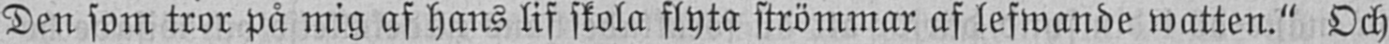Den som tror på mig af hans lif skola flyta strömmar af lefwande watten." Och
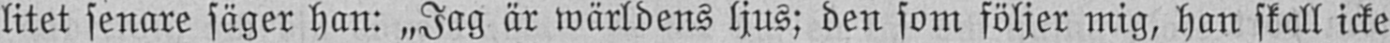litet senare säger han: „Jag är wärldens ljus; den som följer mig, han skall icke
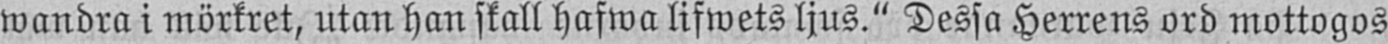wandra i mörkret, utan han skall hafwa lifwets ljus." Dessa Herrens ord mottogos
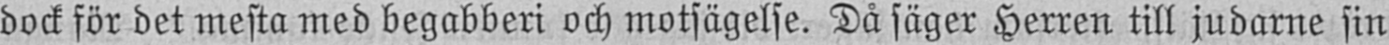dock för det mesta med begabberi och motsägelse. Då säger Herren till judarne sin
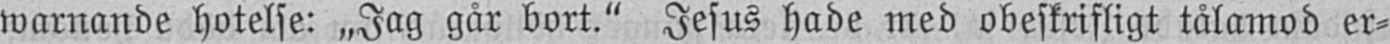warnande hotelse: „Jag går bort." Jesus hade med obeskrifligt tålamod er-
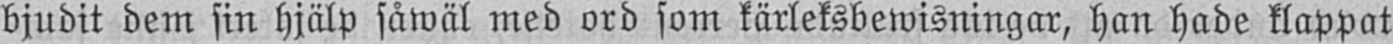bjudit dem sin hjälp såwäl med ord som kärleksbewisningar, han hade klappat
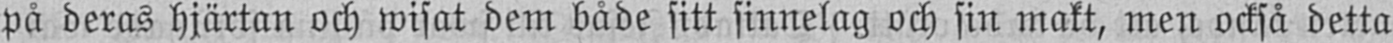på deras hjärtan och wisat dem både sitt sinnelag och sin makt, men också detta
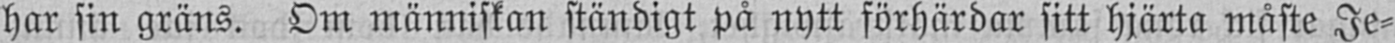har sin gräns. Om människan ständigt på nytt förhärdar sitt hjärta måste Je-
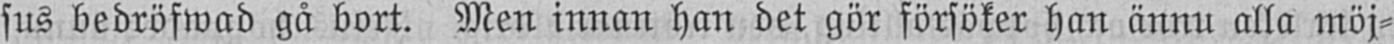sus bedröfwad gå bort. Men innan han det gör försöker han ännu alla möj-
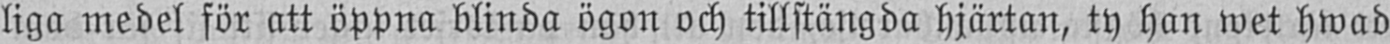liga medel för att öppna blinda ögon och tillstängda hjärtan, ty han wet hwad
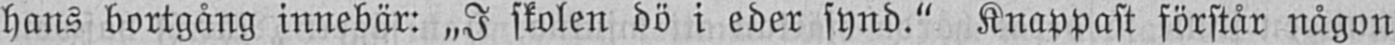hans bortgång innebär: „I skolen dö i eder synd." Knappast förstår någon
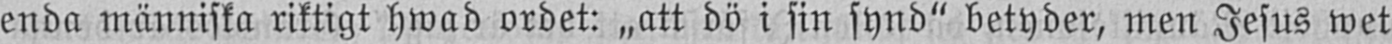enda människa riktigt hwad ordet: „att dö i sin synd" betyder, men Jesus wet
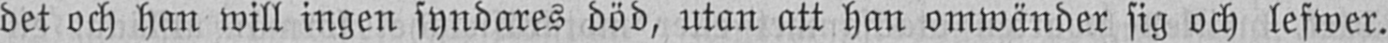det och han will ingen syndares död, utan att han omwänder sig och lefwer.
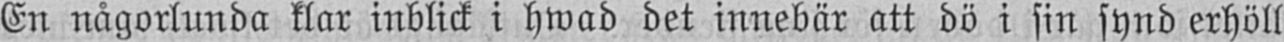En någorlunda klar inblick i hwad det innebär att dö i sin synd erhöll
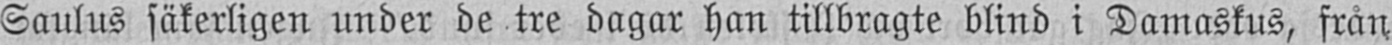Saulus säkerligen under de tre dagar han tillbragte blind i Damaskus, från
